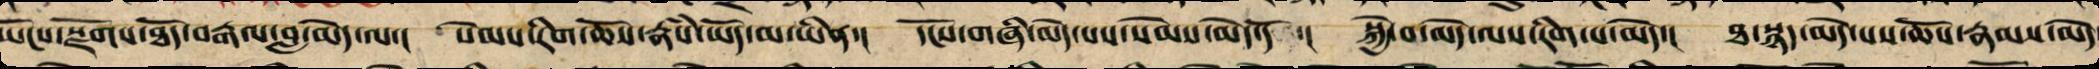ཡོངས་སྫོགས་ཐོད་བརྒལ་བླ་མེད་ལ་། སེམས་རིག་ཆོས་རྣཾས་ཡོད་མ་ཡིན་། དངོས་གཞི་མེད་པས་སེམས་མེད་དོ་། སྐྱེ་བ་མེད་ལས་རིག་པ་མེད་། ཐ་སྙད་མེད་པས་ཆོས་རྣམས་མེད
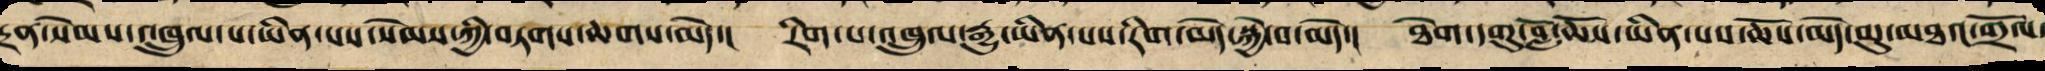དྲན་སེམས་འཁྲུལ་པ་ཡིན་པས་སེམས་ཀྱི་བཏགས་ཆགས་མེད་། རིག་པ་འཁྲུལ་རྒྱུ་ཡིན་པས་རིག་མེད་སྐྱེ་བ་མེད་། ཐེག་དགུ་བློ་ཆོས་ཡིན་པས་ཆོས་མེད་མུ་མཐའ་གྲོལ་
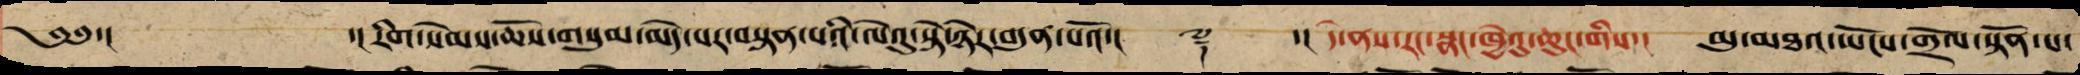༄༅་།   ་།རིག་སེམས་ཆོས་གསུམ་མེད་པར་བསྟན་པའི་ལེའུ་སྟེ་ཉེར་བདུན་པའོ་།། ༈ ་།། དེ་ནས་རང་སྣང་ཁྱེའུ་ཆུང་གིས་། མུ་མཐའ་ཡོངས་གྲོལ་སྟོན་པ་
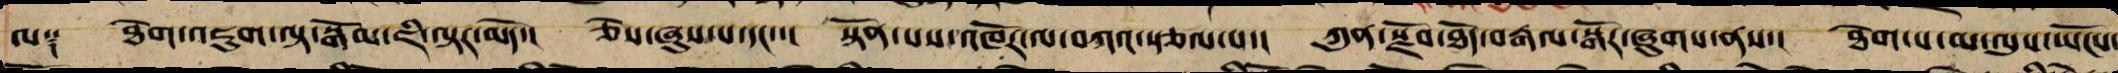ལ༑ ཐེག་འཇུག་བལྟ་བསྒོམ་ཇི་ལྟར་མེད་། ཅེས་ཞུས་པ་དང་་། སྟོན་པས་འཁོར་ལ་བཀའ་སྩལ་པ་། ཀུན་སྫོབ་ཐོད་རྒལ་སྒོར་ཞུགས་ནས་། ཐེག་པ་མ་ལུས་ཡོངས་
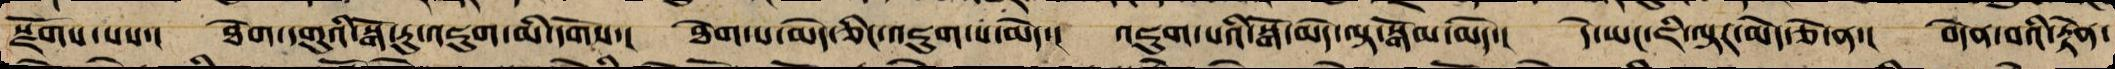སྫོགས་པས་། ཐེག་དགུའི་སྒོ་རུ་འཇུག་མི་དགོས་། ཐེག་པ་མེད་ཅིང་འཇུག་པ་མེད་། འཇུག་པའི་སྒོ་མེད་ལྟ་སྒོམ་མེད་། དེ་ཡང་ཇི་ལྟར་མེད་ཅེ་ན་། བདེན་པའི་རྟེན་
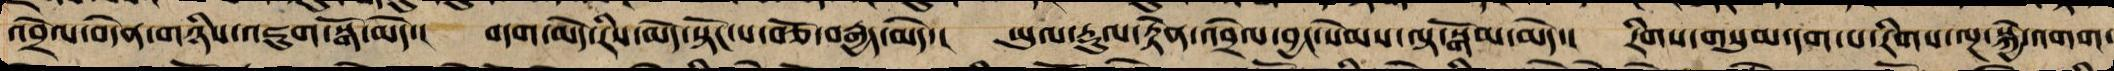འབྲེལ་བདེན་གཉིས་འཇུག་སྒོ་མེད་། བདག་མེད་རིས་མེད་སྟོང་པ་བཅོ་བརྒྱད་མེད་། ཡུལ་རྡུལ་རྟེན་འབྲེལ་བྱང་སེམས་ལྟ་སྒོམ་མེད་། རིགས་གསུམ་དག་པ་རིགས་ལྔ་སྐྱེ་འགག་
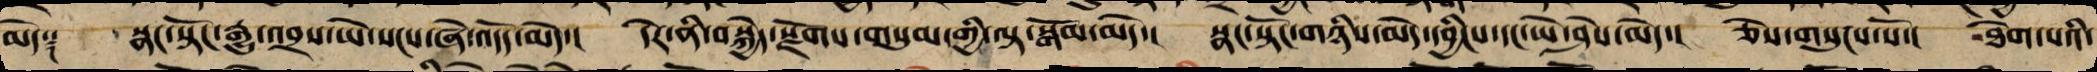མེད༑ སྣང་སྟོང་རྒྱུ་འབྲས་ཡེ་སངས་ཞེ་འདོད་མེད་། དེར་ནི་བསྐྱེད་སྫོགས་གསུམ་གྱི་བལྟ་སྒོམ་མེད་། སྣང་སྟོང་གཉིས་མེད་དབྱིངས་དང་ཡེ་ཤེས་མེད་། ཅེས་གསུངས་སོ་། ཐེག་པའི་
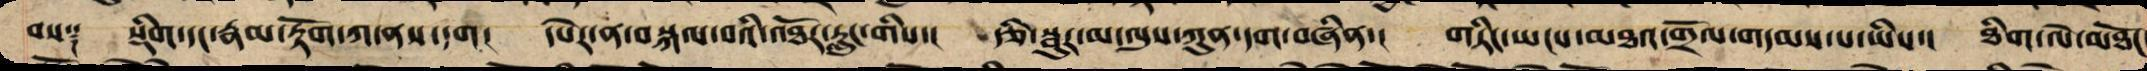བས༑ སྡིག་དང་རྣམ་རྟོག་ཀ་ནས་དག། དཔེར་ན་བསྐལ་པའི་འཐོར་རླུང་གིས་། རྩི་སྦུར་མ་ལུས་ཀུན་དག་བཞིན་། གཏིང་ཡངས་མཐའ་གྲོལ་གདམས་པ་ཡིས་། ཐིག་ལེ་མཐོང
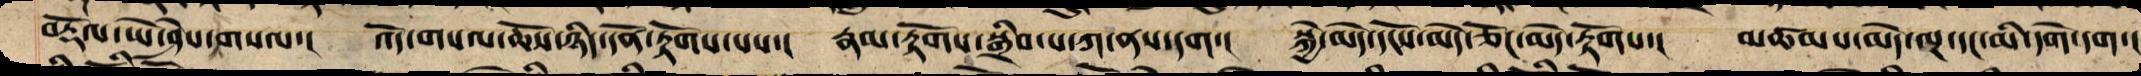བརྡོལ་ཡེ་ཤེས་གསལ་། འོད་གསལ་ཆོས་ཉིད་དོན་རྟོགས་པས་། རྣམ་རྟོགས་སྒྲིབ་པ་ཀ་ནས་དག། སྐྱེ་མེད་དངོས་མེད་ཅོང་མེད་རྟོགས་། མཚམས་མེད་ལྔ་དང་མི་དགེ་དག་།
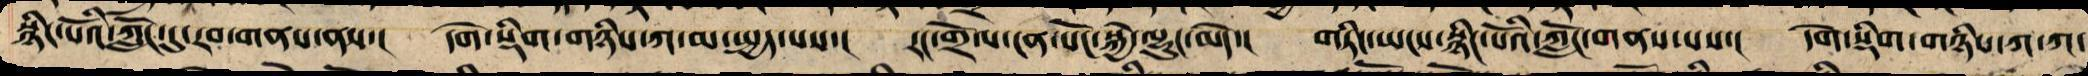སྙིང་པོའི་ཀློང་དུ་རབ་གནས་ནས་། དགེ་སྡིག་གཉིས་ཀ་མ་སྤྱད་པས་། རང་གྲོལ་ངན་སོང་སྐྱེ་ལྷུང་མེད་། གཏིང་ཡངས་སྙིང་པོའི་ཀློང་གནས་པས་། དགེ་སྡིག་གཉིས་ཀ་ཀ་
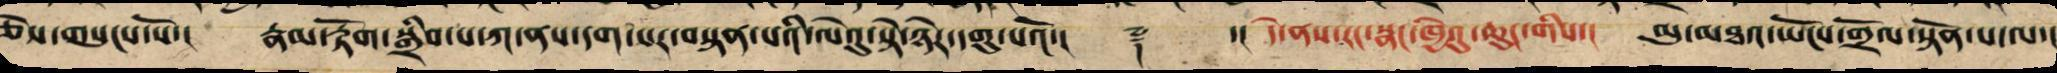ཅེས་གསུངས་སོ་། རྣམ་རྟོག་སྒྲིབ་པ་ཀ་ནས་དག་པར་བསྟན་པའི་ལེའུ་སྟེ་ཉེར་དགུ་པའོ་།། ༈ ་།། དེ་ནས་རང་སྣང་ཁྱེའུ་ཆུང་གིས་། མུ་མཐའ་ཡོངས་གྲོལ་སྟོན་པ་ལ་།
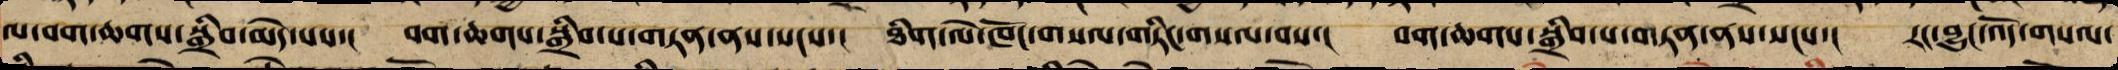ལ་བག་ཆགས་སྒྲིབ་མེད་པས་། བག་ཆགས་སྒྲིབ་པ་གཏན་ནས་སངས་། ཐིག་ལེ་ཁོང་གསལ་གཏིང་གསལ་བས་། བག་ཆགས་སྒྲིབ་པ་གཏན་ནས་སངས་། རང་བྱུང་འོད་གསལ་
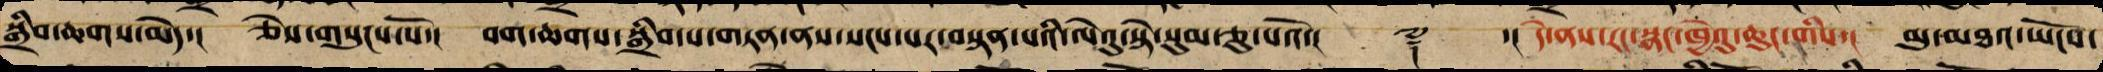སྒྲིབ་ཆགས་མེད་། ཅེས་གསུངས་སོ་། བག་ཆགས་སྒྲིབ་པ་གཏན་ནས་སངས་པར་བསྟན་པའི་ལེའུ་སྟེ་སུམ་ཅུ་པའོ་།། ༈ ་།། དེ་ནས་རང་སྣང་ཁྱེའུ་ཆུང་གིས་། མུ་མཐའ་ཡོངས་
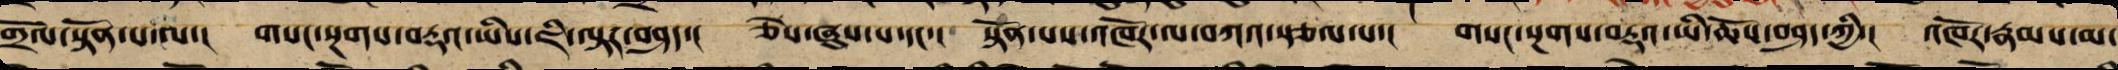གྲོལ་སྟོན་པ་ལ་། གསང་སྔགས་བརྡའ་ཡིས་ཇི་ལྟར་བཤད་། ཅེས་ཞུས་པ་དང་། སྟོན་པས་འཁོར་ལ་བཀའ་སྩལ་པ་། གསང་སྔགས་བརྡའ་ཡི་ཆོས་བཤད་ཀྱི་། འཁོར་རྣམས་མ
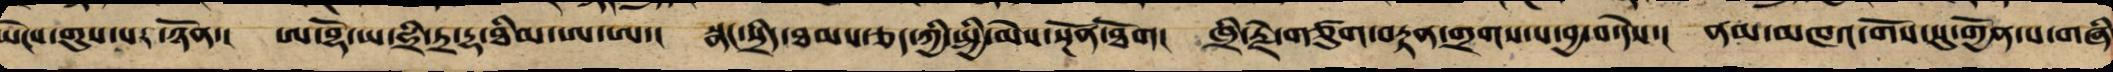ཡེངས་གུས་པར་ཉོན་། ཨ་བྷོ་ཡ་ཧྲི་ཏྲ་དྷ་ཐི་མ་ཨ་ཨ་། སྣང་སྲིད་ཐམས་ཅད་ཀྱི་སྤྱི་མེས་སྔོན་ཐོག། ཁྲི་རྗེ་གཙུག་བརྟན་གྲགས་པ་བྱ་བ་དེས་། ནམ་མཁའ་གོས་སུ་གྱོན་པ་གཞི
